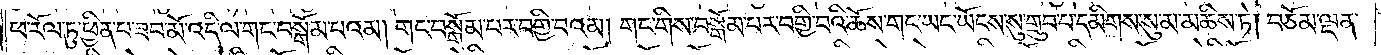ཕ་རོལ་ཏུ་ཕྱིན་པ་ཟབ་མོ་འདི་ལ་གང་བསྒོམ་པའམ། གང་བསྒོམ་པར་བགྱི་བའམ། གང་གིས་བསྒོམ་པར་བགྱི་བའི་ཆོས་གང་ཡང་ཡོངས་སུ་གྲུབ་པ་དམིགས་སུ་མ་མཆིས་ཏེ། བཅོམ་ལྡན་
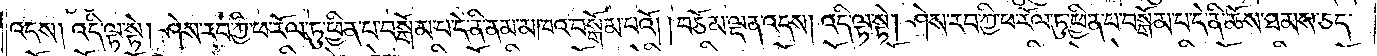འདས། འདི་ལྟ་སྟེ། ཤེས་རབ་ཀྱི་ཕ་རོལ་ཏུ་ཕྱིན་པ་བསྒོམ་པ་དེ་ནི་ནམ་མཁའ་བསྒོམ་པའོ། །བཅོམ་ལྡན་འདས། འདི་ལྟ་སྟེ། ཤེས་རབ་ཀྱི་ཕ་རོལ་ཏུ་ཕྱིན་པ་བསྒོམ་པ་དེ་ནི་ཆོས་ཐམས་ཅད་
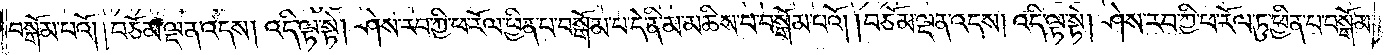བསྒོམ་པའོ། །བཅོམ་ལྡན་འདས། འདི་ལྟ་སྟེ། ཤེས་རབ་ཀྱི་ཕ་རོལ་ཏུ་ཕྱིན་པ་བསྒོམ་པ་དེ་ནི་མ་མཆིས་པ་བསྒོམ་པའོ། །བཅོམ་ལྡན་འདས། འདི་ལྟ་སྟེ། ཤེས་རབ་ཀྱི་ཕ་རོལ་ཏུ་ཕྱིན་པ་བསྒོམ་
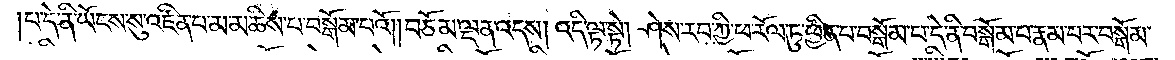པ་དེ་ནི་ཡོངས་སུ་འཛིན་པ་མ་མཆིས་པ་བསྒོམ་པའོ། །བཅོམ་ལྡན་འདས། འདི་ལྟ་སྟེ། ཤེས་རབ་ཀྱི་ཕ་རོལ་ཏུ་ཕྱིན་པ་བསྒོམ་པ་དེ་ནི་བསྒོམ་པ་རྣམ་པར་བསྒོམ་
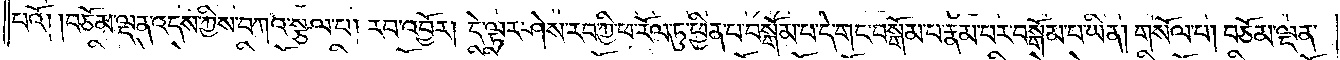པའོ། །བཅོམ་ལྡན་འདས་ཀྱིས་བཀའ་སྩལ་པ། རབ་འབྱོར། དེ་ལྟར་ཤེས་རབ་ཀྱི་ཕ་རོལ་ཏུ་ཕྱིན་པ་བསྒོམ་པ་དེ་གང་བསྒོམ་པ་རྣམ་པར་བསྒོམ་པ་ཡིན། གསོལ་པ། བཅོམ་ལྡན་
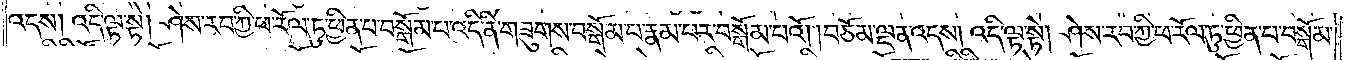འདས། འདི་ལྟ་སྟེ། ཤེས་རབ་ཀྱི་ཕ་རོལ་ཏུ་ཕྱིན་པ་བསྒོམ་པ་འདི་ནི་གཟུགས་བསྒོམ་པ་རྣམ་པར་བསྒོམ་པའོ། །བཅོམ་ལྡན་འདས། འདི་ལྟ་སྟེ། ཤེས་རབ་ཀྱི་ཕ་རོལ་ཏུ་ཕྱིན་པ་བསྒོམ་
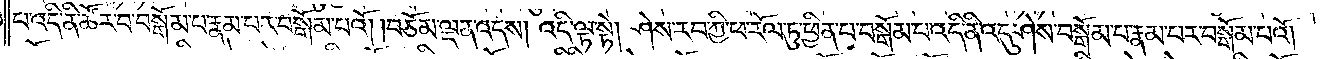པ་འདི་ནི་ཚོར་བ་བསྒོམ་པ་རྣམ་པར་བསྒོམ་པའོ། །བཅོམ་ལྡན་འདས། འདི་ལྟ་སྟེ། ཤེས་རབ་ཀྱི་ཕ་རོལ་ཏུ་ཕྱིན་པ་བསྒོམ་པ་འདི་ནི་འདུ་ཤེས་བསྒོམ་པ་རྣམ་པར་བསྒོམ་པའོ། །
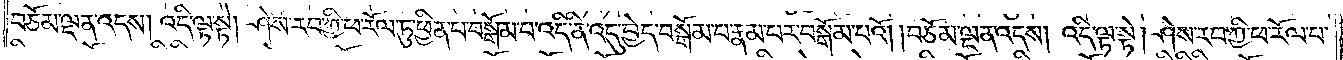བཅོམ་ལྡན་འདས། འདི་ལྟ་སྟེ། ཤེས་རབ་ཀྱི་ཕ་རོལ་ཏུ་ཕྱིན་པ་བསྒོམ་པ་འདི་ནི་འདུ་བྱེད་བསྒོམ་པ་རྣམ་པར་བསྒོམ་པའོ། །བཅོམ་ལྡན་འདས། འདི་ལྟ་སྟེ། ཤེས་རབ་ཀྱི་ཕ་རོལ་པ་
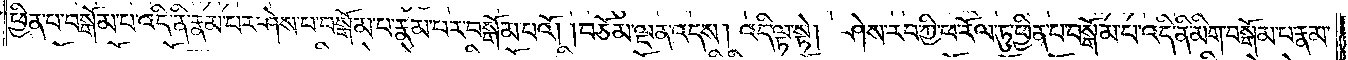ཕྱིན་པ་བསྒོམ་པ་འདི་ནི་རྣམ་པར་ཤེས་པ་བསྒོམ་པ་རྣམ་པར་བསྒོམ་པའོ། །བཅོམ་ལྡན་འདས། འདི་ལྟ་སྟེ། ཤེས་རབ་ཀྱི་ཕ་རོལ་ཏུ་ཕྱིན་པ་བསྒོམ་པ་འདི་ནི་མིག་བསྒོམ་པ་རྣམ་
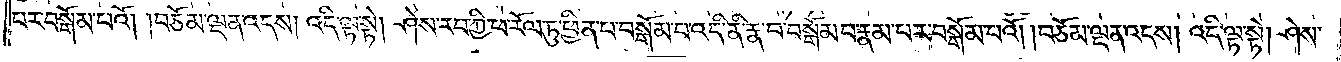པར་བསྒོམ་པའོ། །བཅོམ་ལྡན་འདས། འདི་ལྟ་སྟེ། ཤེས་རབ་ཀྱི་ཕ་རོལ་ཏུ་ཕྱིན་པ་བསྒོམ་པ་འདི་ནི་རྣ་བ་བསྒོམ་པ་རྣམ་པར་བསྒོམ་པའོ། །བཅོམ་ལྡན་འདས། འདི་ལྟ་སྟེ། ཤེས་
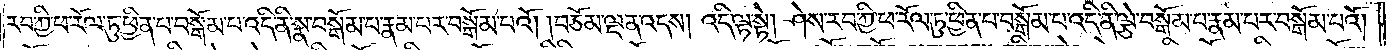རབ་ཀྱི་ཕ་རོལ་ཏུ་ཕྱིན་པ་བསྒོམ་པ་འདི་ནི་སྣ་བསྒོམ་པ་རྣམ་པར་བསྒོམ་པའོ། །བཅོམ་ལྡན་འདས། འདི་ལྟ་སྟེ། ཤེས་རབ་ཀྱི་ཕ་རོལ་ཏུ་ཕྱིན་པ་བསྒོམ་པ་འདི་ནི་ལྕེ་བསྒོམ་པ་རྣམ་པར་བསྒོམ་པའོ། །
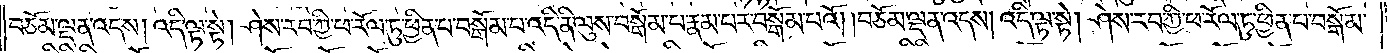བཅོམ་ལྡན་འདས། འདི་ལྟ་སྟེ། ཤེས་རབ་ཀྱི་ཕ་རོལ་ཏུ་ཕྱིན་པ་བསྒོམ་པ་འདི་ནི་ལུས་བསྒོམ་པ་རྣམ་པར་བསྒོམ་པའོ། །བཅོམ་ལྡན་འདས། འདི་ལྟ་སྟེ། ཤེས་རབ་ཀྱི་ཕ་རོལ་ཏུ་ཕྱིན་པ་བསྒོམ་
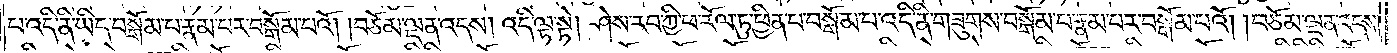པ་འདི་ནི་ཡིད་བསྒོམ་པ་རྣམ་པར་བསྒོམ་པའོ། །བཅོམ་ལྡན་འདས། འདི་ལྟ་སྟེ། ཤེས་རབ་ཀྱི་ཕ་རོལ་ཏུ་ཕྱིན་པ་བསྒོམ་པ་འདི་ནི་གཟུགས་བསྒོམ་པ་རྣམ་པར་བསྒོམ་པའོ། །བཅོམ་ལྡན་འདས་
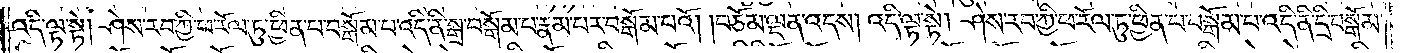འདི་ལྟ་སྟེ། ཤེས་རབ་ཀྱི་ཕ་རོལ་ཏུ་ཕྱིན་པ་བསྒོམ་པ་འདི་ནི་སྒྲ་བསྒོམ་པ་རྣམ་པར་བསྒོམ་པའོ། །བཅོམ་ལྡན་འདས། འདི་ལྟ་སྟེ། ཤེས་རབ་ཀྱི་ཕ་རོལ་ཏུ་ཕྱིན་པ་བསྒོམ་པ་འདི་ནི་དྲི་བསྒོམ་
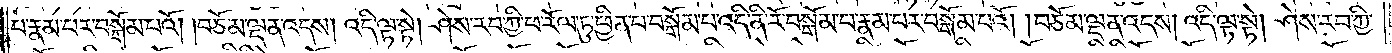པ་རྣམ་པར་བསྒོམ་པའོ། །བཅོམ་ལྡན་འདས། འདི་ལྟ་སྟེ། ཤེས་རབ་ཀྱི་ཕ་རོལ་ཏུ་ཕྱིན་པ་བསྒོམ་པ་འདི་ནི་རོ་བསྒོམ་པ་རྣམ་པར་བསྒོམ་པའོ། །བཅོམ་ལྡན་འདས། འདི་ལྟ་སྟེ། ཤེས་རབ་ཀྱི་
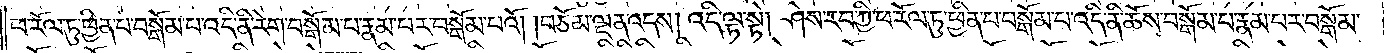ཕ་རོལ་ཏུ་ཕྱིན་པ་བསྒོམ་པ་འདི་ནི་རེག་བསྒོམ་པ་རྣམ་པར་བསྒོམ་པའོ། །བཅོམ་ལྡན་འདས། འདི་ལྟ་སྟེ། ཤེས་རབ་ཀྱི་ཕ་རོལ་ཏུ་ཕྱིན་པ་བསྒོམ་པ་འདི་ནི་ཆོས་བསྒོམ་པ་རྣམ་པར་བསྒོམ་
